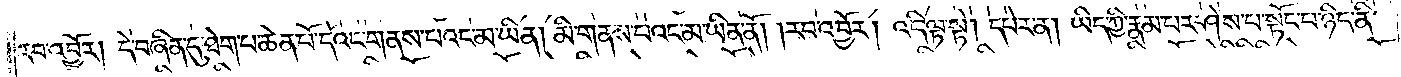རབ་འབྱོར། དེ་བཞིན་དུ་ཐེག་པ་ཆེན་པོ་དེའང་གནས་པའང་མ་ཡིན། མི་གནས་པའང་མ་ཡིན་ནོ། །རབ་འབྱོར། འདི་ལྟ་སྟེ། དཔེར་ན། ཡིད་ཀྱི་རྣམ་པར་ཤེས་པ་སྟོང་པ་ཉིད་ནི་
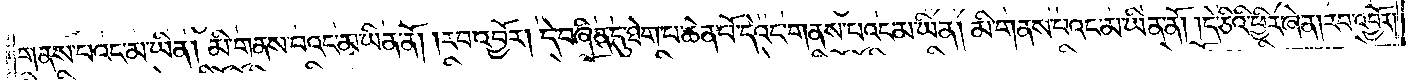གནས་པའང་མ་ཡིན། མི་གནས་པའང་མ་ཡིན་ནོ། །རབ་འབྱོར། དེ་བཞིན་དུ་ཐེག་པ་ཆེན་པོ་དེའང་གནས་པའང་མ་ཡིན་མི་གནས་པའང་མ་ཡིན་ནོ། །དེ་ཅིའི་ཕྱིར་ཞེ་ན། རབ་འབྱོར།
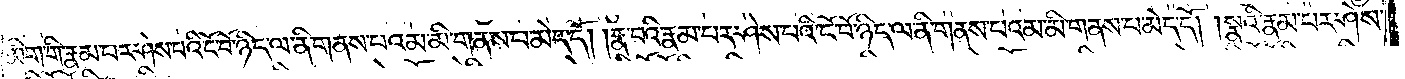མིག་གི་རྣམ་པར་ཤེས་པའི་ངོ་བོ་ཉིད་ལ་ནི་གནས་པའམ་མི་གནས་པ་མེད་དོ། །རྣ་བའི་རྣམ་པར་ཤེས་པའི་ངོ་བོ་ཉིད་ལ་ནི་གནས་པའམ་མི་གནས་པ་མེད་དོ། །སྣའི་རྣམ་པར་ཤེས་
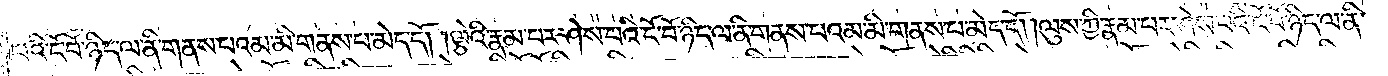པའི་ངོ་བོ་ཉིད་ལ་ནི་གནས་པའམ་མི་གནས་པ་མེད་དོ། །ལྕེའི་རྣམ་པར་ཤེས་པའི་ངོ་བོ་ཉིད་ལ་ནི་གནས་པའམ་མི་གནས་པ་མེད་དོ། །ལུས་ཀྱི་རྣམ་པར་ཤེས་པའི་ངོ་བོ་ཉིད་ལ་ནི་
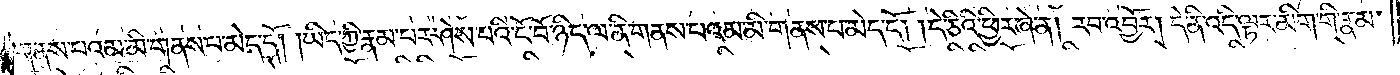གནས་པའམ་མི་གནས་པ་མེད་དོ། །ཡིད་ཀྱི་རྣམ་པར་ཤེས་པའི་ངོ་བོ་ཉིད་ལ་ནི་གནས་པའམ་མི་གནས་པ་མེད་དོ། །དེ་ཅིའི་ཕྱིར་ཞེ་ན། རབ་འབྱོར། དེ་ནི་འདི་ལྟར་མིག་གི་རྣམ་
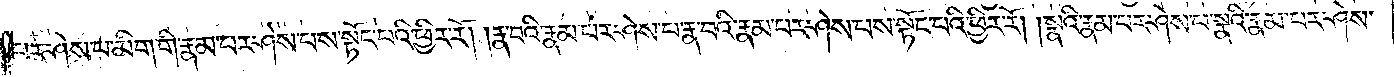པར་ཤེས་པ་མིག་གི་རྣམ་པར་ཤེས་པས་སྟོང་པའི་ཕྱིར་རོ། །རྣ་བའི་རྣམ་པར་ཤེས་པ་རྣ་བའི་རྣམ་པར་ཤེས་པས་སྟོང་པའི་ཕྱིར་རོ། །སྣའི་རྣམ་པར་ཤེས་པ་སྣའི་རྣམ་པར་ཤེས་
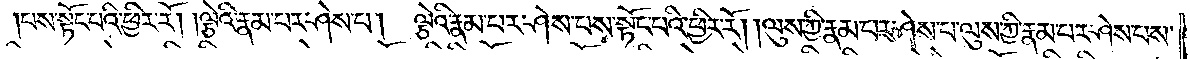པས་སྟོང་པའི་ཕྱིར་རོ། །ལྕེའི་རྣམ་པར་ཤེས་པ། ལྕེའི་རྣམ་པར་ཤེས་པས་སྟོང་པའི་ཕྱིར་རོ། །ལུས་ཀྱི་རྣམ་པར་ཤེས་པ་ལུས་ཀྱི་རྣམ་པར་ཤེས་པས་
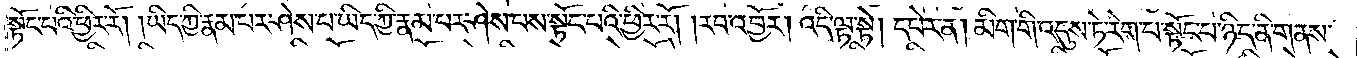སྟོང་པའི་ཕྱིར་རོ། །ཡིད་ཀྱི་རྣམ་པར་ཤེས་པ་ཡིད་ཀྱི་རྣམ་པར་ཤེས་པས་སྟོང་པའི་ཕྱིར་རོ། །རབ་འབྱོར། འདི་ལྟ་སྟེ། དཔེར་ན། མིག་གི་འདུས་ཏེ་རེག་པ་སྟོང་པ་ཉིད་ནི་གནས་
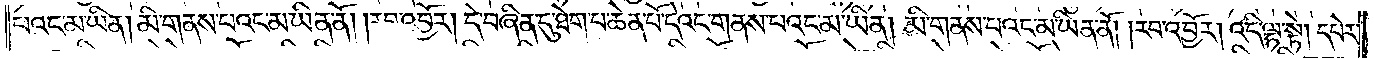པའང་མ་ཡིན་མི་གནས་པའང་མ་ཡིན་ནོ། །རབ་འབྱོར། དེ་བཞིན་དུ་ཐེག་པ་ཆེན་པོ་དེའང་གནས་པའང་མ་ཡིན། མི་གནས་པའང་མ་ཡིན་ནོ། །རབ་འབྱོར། འདི་ལྟ་སྟེ། དཔེར་
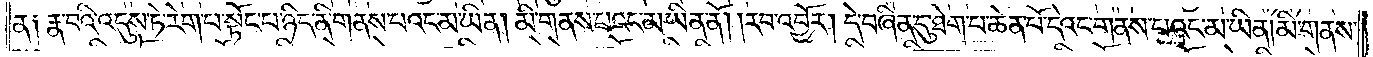ན། རྣ་བའི་འདུས་ཏེ་རེག་པ་སྟོང་པ་ཉིད་ནི་གནས་པའང་མ་ཡིན། མི་གནས་པའང་མ་ཡིན་ནོ། །རབ་འབྱོར། དེ་བཞིན་དུ་ཐེག་པ་ཆེན་པོ་དེའང་གནས་པའང་མ་ཡིན། མི་གནས་
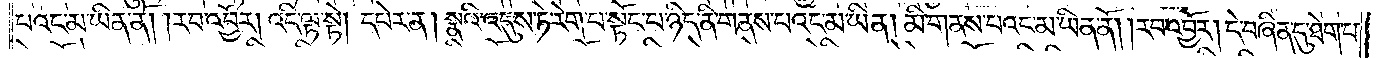པའང་མ་ཡིན་ནོ། །རབ་འབྱོར། འདི་ལྟ་སྟེ། དཔེར་ན། སྣའི་འདུས་ཏེ་རེག་པ་སྟོང་པ་ཉིད་ནི་གནས་པའང་མ་ཡིན། མི་གནས་པའང་མ་ཡིན་ནོ། །རབ་འབྱོར། དེ་བཞིན་དུ་ཐེག་པ་
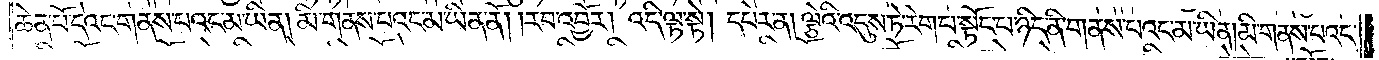ཆེན་པོ་དེའང་གནས་པའང་མ་ཡིན། མི་གནས་པའང་མ་ཡིན་ནོ། །རབ་འབྱོར། འདི་ལྟ་སྟེ། དཔེར་ན། ལྕེའི་འདུས་ཏེ་རེག་པ་སྟོང་པ་ཉིད་ནི་གནས་པའང་མ་ཡིན། མི་གནས་པའང་
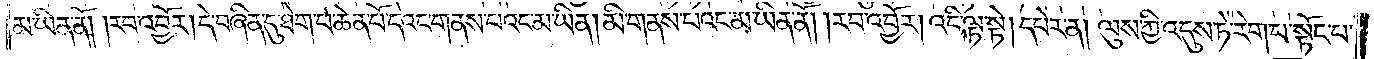མ་ཡིན་ནོ། །རབ་འབྱོར། དེ་བཞིན་དུ་ཐེག་པ་ཆེན་པོ་དེའང་གནས་པའང་མ་ཡིན། མི་གནས་པའང་མ་ཡིན་ནོ། །རབ་འབྱོར། འདི་ལྟ་སྟེ། དཔེར་ན། ལུས་ཀྱི་འདུས་ཏེ་རེག་པ་སྟོང་པ་
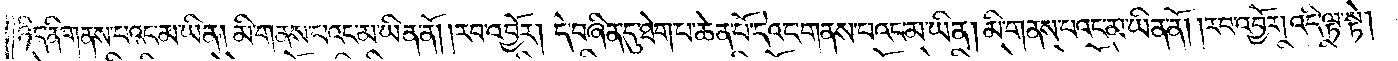ཉིད་ནི་གནས་པའང་མ་ཡིན། མི་གནས་པའང་མ་ཡིན་ནོ། །རབ་འབྱོར། དེ་བཞིན་དུ་ཐེག་པ་ཆེན་པོ་དེའང་གནས་པའང་མ་ཡིན། མི་གནས་པའང་མ་ཡིན་ནོ། །རབ་འབྱོར། འདི་ལྟ་སྟེ།
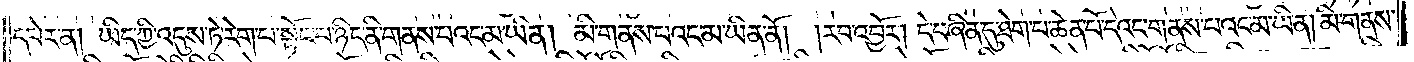དཔེར་ན། ཡིད་ཀྱི་འདུས་ཏེ་རེག་པ་སྟོང་པ་ཉིད་ནི་གནས་པའང་མ་ཡིན། མི་གནས་པའང་མ་ཡིན་ནོ། །རབ་འབྱོར། དེ་བཞིན་དུ་ཐེག་པ་ཆེན་པོ་དེའང་གནས་པའང་མ་ཡིན། མི་གནས་
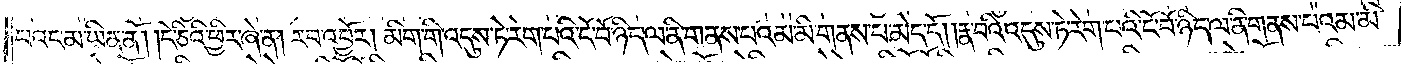པའང་མ་ཡིན་ནོ། །དེ་ཅིའི་ཕྱིར་ཞེ་ན། རབ་འབྱོར། མིག་གི་འདུས་ཏེ་རེག་པའི་ངོ་བོ་ཉིད་ལ་ནི་གནས་པའམ་མི་གནས་པ་མེད་དོ། །རྣ་བའི་འདུས་ཏེ་རེག་པའི་ངོ་བོ་ཉིད་ལ་ནི་གནས་པའམ་མི་
